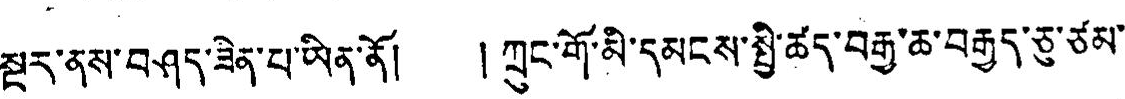སྔར་ནས་བཤད་ཟེན་པ་ཡིན་ནོ། །ཀྲུང་གོ་མི་དམངས་སྤྱི་ཚད་བརྒྱ་ཆ་བརྒྱད་ཅུ་ཙམ་
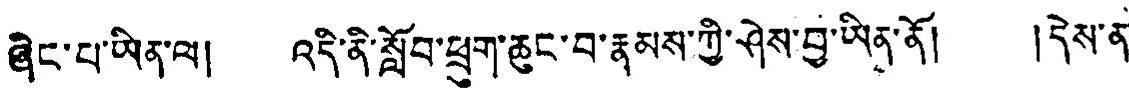ཞིང་པ་ཡིན་ལ། འདི་ནི་སློབ་ཕྲུག་ཆུང་བ་རྣམས་ཀྱི་ཤེས་བྱ་ཡིན་ནོ། །དེས་ན་
